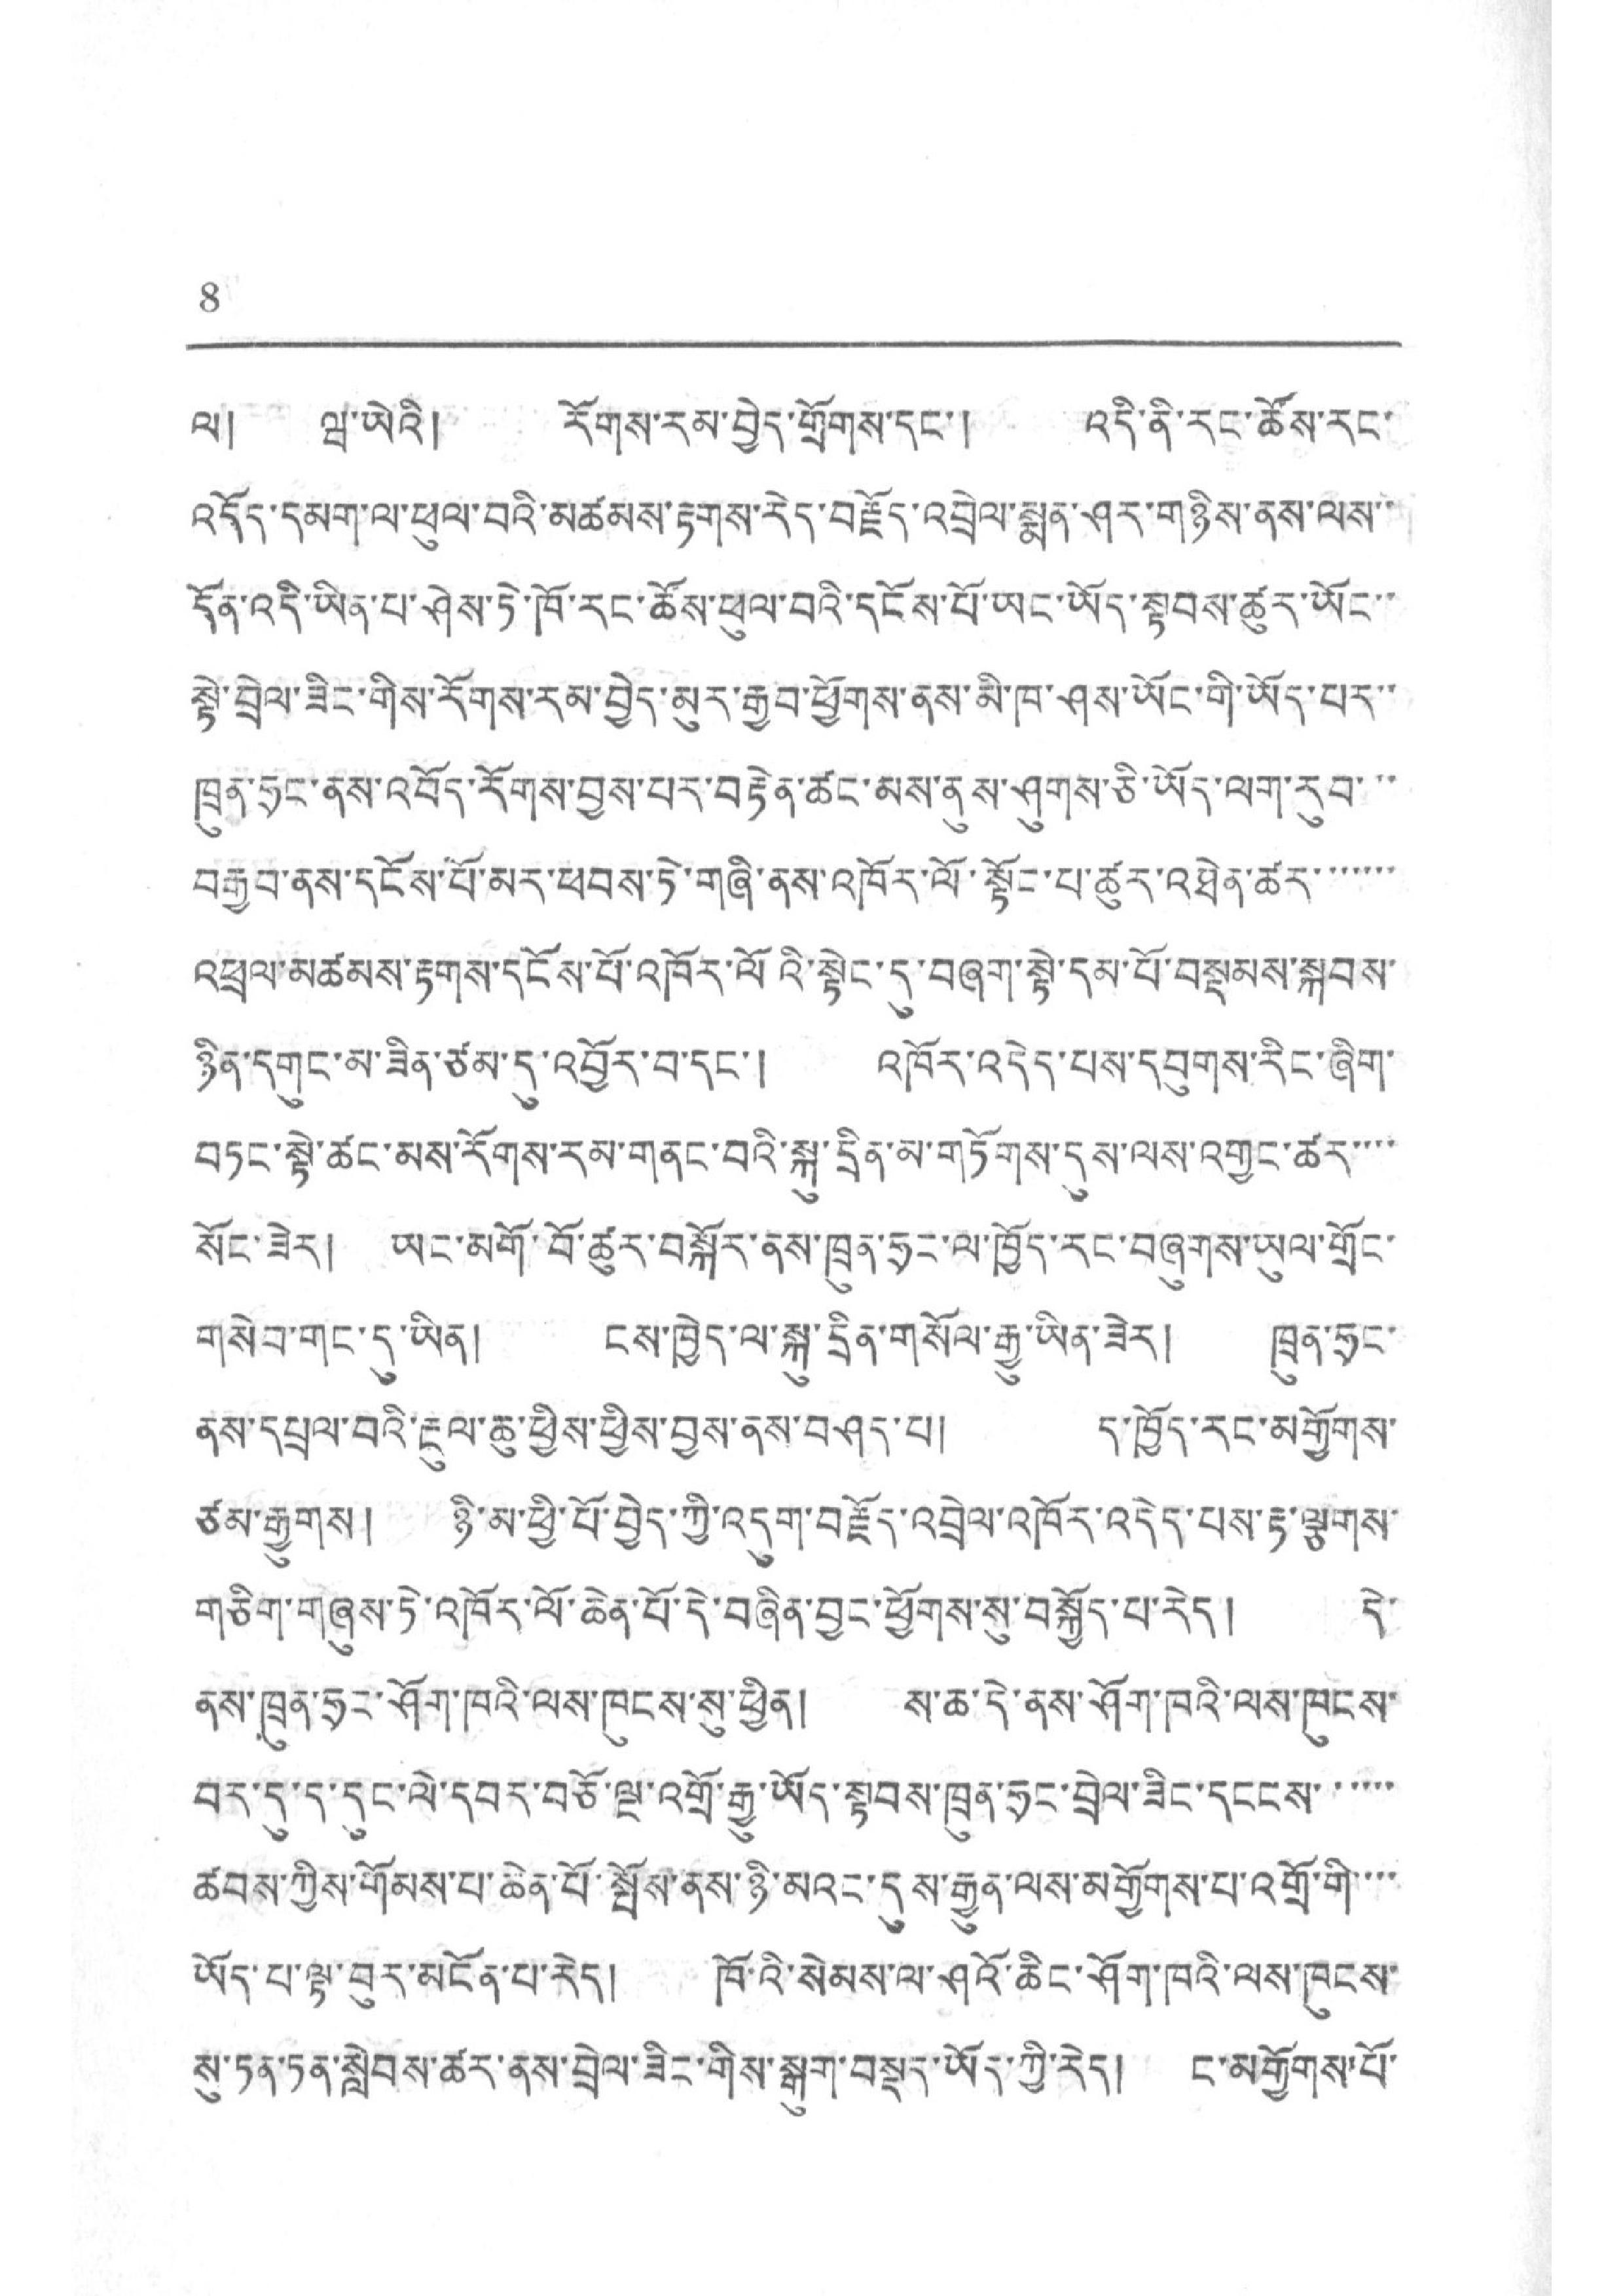8
ལ། ཝ་ཡེའི། རོགས་རམ་བྱེད་གྲོགས་དང་། འདི་ནི་རང་ཚོས་རང་
འདོད་དམག་ལ་ཕུལ་བའི་མཚམས་རྟགས་རེད་བརྗོད་འབྲེལ་སྨན་ཤར་གཉིས་ནས་ལས་་
དོན་འདི་ཡིན་པ་ཤེས་ཏེ་ཁོ་རང་ཚོས་ཕུལ་བའི་དངོས་པོ་ཡང་ཡོད་སྟབས་ཚུར་ཡོང་་
སྟེ་བྲེལ་ཟིང་གིས་རོགས་རམ་བྱེད་མུར་རྒྱབ་ཕྱོགས་ནས་མི་ཁ་ཤས་ཡོང་གི་ཡོད་པར་་
ཁྲུན་ཧྲང་ནས་འབོད་རོགས་བྱས་པར་བརྟེན་ཚང་མས་ནུས་ཤུགས་ཅི་ཡོད་ལག་རུབ་་་
བརྒྱབ་ནས་དངོས་པོ་མར་ཕབས་ཏེ་གཞི་ནས་འཁོར་ལོ་སྟོང་པ་ཚུར་འཐེན་ཚར་་་་་་་
འཕྲལ་མཚམས་རྟགས་དངོས་པོ་འཁོར་ལོའི་སྟེང་དུ་བཞག་སྟེ་དམ་པོ་བསྡམས་སྐབས་
ཉིན་དགུང་མ་ཟིན་ཙམ་དུ་འབྱོར་བ་དང་། འཁོར་འདེད་པས་དབུགས་རིང་ཞིག་
བཏང་སྟེ་ཚང་མས་རོགས་རམ་གནང་བའི་སྐུ་དྲིན་མ་གཏོགས་དུས་ལས་འགྱང་ཚར་་་་་་
སོང་ཟེར། ཡང་མགོ་བོ་ཚུར་བསྐོར་ནས་ཁྲུན་ཧྲང་ལ་ཁྱོད་རང་བཞུགས་ཡུལ་གྲོང་
གསེབ་གང་དུ་ཡིན། ངས་ཁྱེད་ལ་སྐུ་དྲིན་གསོལ་རྒྱུ་ཡིན་ཟེར། ཁྲུན་ཧྲང་
ནས་དཔྲལ་བའི་རྔུལ་ཆུ་ཕྱིས་ཕྱིས་བྱས་ནས་བཤད་པ། ད་ཁྱོད་རང་མགྱོགས་
ཙམ་རྒྱུགས། ཉི་མ་ཕྱི་པོ་བྱེད་ཀྱི་འདུག་བརྗོད་འབྲེལ་འཁོར་འདེད་པས་རྟ་ལྕགས་
གཅིག་གཞུས་ཏེ་འཁོར་ལོ་ཆེན་པོ་དེ་བཞིན་བྱང་ཕྱོགས་སུ་བསྐྱོད་པ་རེད། དེ་
ནས་ཁྲུན་ཧྲང་ཤོག་ཁའི་ལས་ཁུངས་སུ་ཕྱིན། ས་ཆ་དེ་ནས་ཤོག་ཁའི་ལས་ཁུངས་
བར་དུ་ད་དུང་ལེ་དབར་བཅོ་ལྔ་འགྲོ་རྒྱུ་ཡོད་སྟབས་ཁྲུན་ཧྲང་བྲེལ་ཟིང་དངངས་་་་་་
ཚབས་ཀྱིས་གོམས་པ་ཆེན་པོ་སྤོས་ནས་ཉི་མའང་དུས་རྒྱུན་ལས་མགྱོགས་པ་འགྲོ་གི་་་་
ཡོད་པ་ལྟ་བུར་མངོན་པ་རེད། ཁོའི་སེམས་ལ་ཤའོ་ཆིང་ཤོག་ཁའི་ལས་ཁུངས་
སུ་ཏན་ཏན་སླེབས་ཚར་ནས་བྲེལ་ཟིང་གིས་སྒུག་བསྡད་ཡོད་ཀྱི་རེད། ང་མགྱོགས་པོ་
